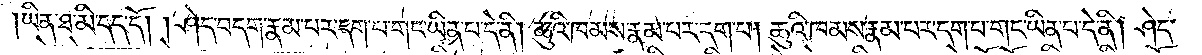ཡིན་ཐ་མི་དད་དོ། །ཤེད་བདག་རྣམ་པར་དག་པ་གང་ཡིན་པ་དེ་ནི། ཆུའི་ཁམས་རྣམ་པར་དག་པ། ཆུའི་ཁམས་རྣམ་པར་དག་པ་གང་ཡིན་པ་དེ་ནི། ཤེད་
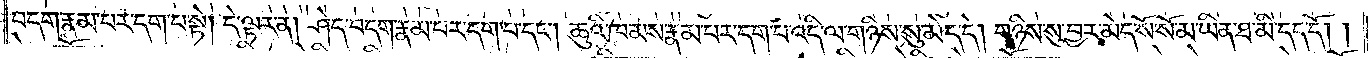བདག་རྣམ་པར་དག་པ་སྟེ། དེ་ལྟར་ན། ཤེད་བདག་རྣམ་པར་དག་པ་དང༌། ཆུའི་ཁམས་རྣམ་པར་དག་པ་འདི་ལ་གཉིས་སུ་མེད་དེ། གཉིས་སུ་བྱར་མེད་སོ་སོ་མ་ཡིན་ཐ་མི་དད་དོ། །
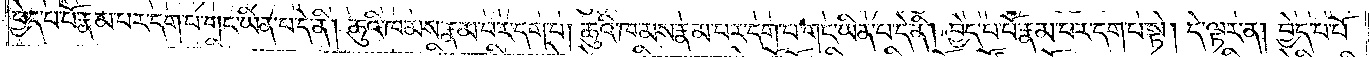བྱེད་པ་པོ་རྣམ་པར་དག་པ་གང་ཡིན་པ་དེ་ནི། ཆུའི་ཁམས་རྣམ་པར་དག་པ། ཆུའི་ཁམས་རྣམ་པར་དག་པ་གང་ཡིན་པ་དེ་ནི། བྱེད་པ་པོ་རྣམ་པར་དག་པ་སྟེ། དེ་ལྟར་ན། བྱེད་པ་པོ་
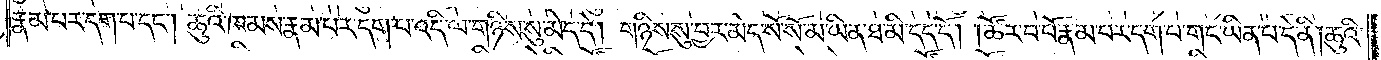རྣམ་པར་དག་པ་དང༌། ཆུའི་ཁམས་རྣམ་པར་དག་པ་འདི་ལ་གཉིས་སུ་མེད་དེ། གཉིས་སུ་བྱར་མེད་སོ་སོ་མ་ཡིན་ཐ་མི་དད་དོ། །ཚོར་བ་པོ་རྣམ་པར་དག་པ་གང་ཡིན་པ་དེ་ནི། ཆུའི་
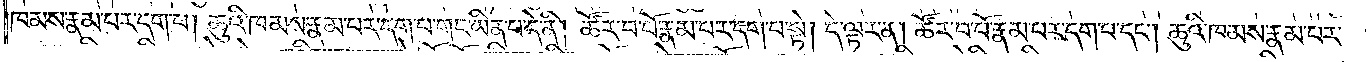ཁམས་རྣམ་པར་དག་པ། ཆུའི་ཁམས་རྣམ་པར་དག་པ་གང་ཡིན་པ་དེ་ནི། ཚོར་བ་པོ་རྣམ་པར་དག་པ་སྟེ། དེ་ལྟར་ན། ཚོར་བ་པོ་རྣམ་པར་དག་པ་དང༌། ཆུའི་ཁམས་རྣམ་པར་
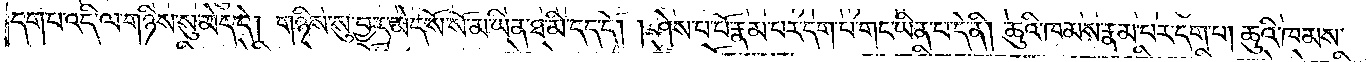དག་པ་འདི་ལ་གཉིས་སུ་མེད་དེ། གཉིས་སུ་བྱར་མེད་སོ་སོ་མ་ཡིན་ཐ་མི་དད་དོ། །ཤེས་པ་པོ་རྣམ་པར་དག་པ་གང་ཡིན་པ་དེ་ནི། ཆུའི་ཁམས་རྣམ་པར་དག་པ། ཆུའི་ཁམས་
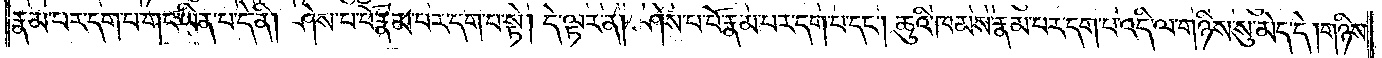རྣམ་པར་དག་པ་གང་ཡིན་པ་དེ་ནི། ཤེས་པ་པོ་རྣམ་པར་དག་པ་སྟེ། དེ་ལྟར་ན། ཤེས་པ་པོ་རྣམ་པར་དག་པ་དང༌། ཆུའི་ཁམས་རྣམ་པར་དག་པ་འདི་ལ་གཉིས་སུ་མེད་དེ། གཉིས་
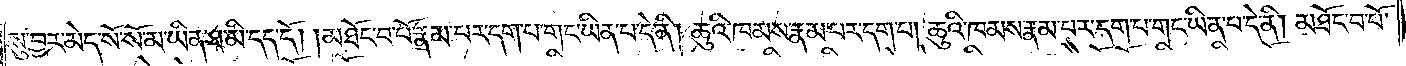སུ་བྱར་མེད་སོ་སོ་མ་ཡིན་ཐ་མི་དད་དོ། །མཐོང་བ་པོ་རྣམ་པར་དག་པ་གང་ཡིན་པ་དེ་ནི། ཆུའི་ཁམས་རྣམ་པར་དག་པ། ཆུའི་ཁམས་རྣམ་པར་དག་པ་གང་ཡིན་པ་དེ་ནི། མཐོང་བ་པོ་
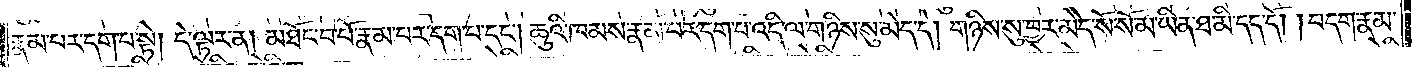རྣམ་པར་དག་པ་སྟེ། དེ་ལྟར་ན། མཐོང་བ་པོ་རྣམ་པར་དག་པ་དང༌། ཆུའི་ཁམས་རྣམ་པར་དག་པ་འདི་ལ་གཉིས་སུ་མེད་དེ། གཉིས་སུ་བྱར་མེད་སོ་སོ་མ་ཡིན་ཐ་མི་དད་དོ། །བདག་རྣམ་
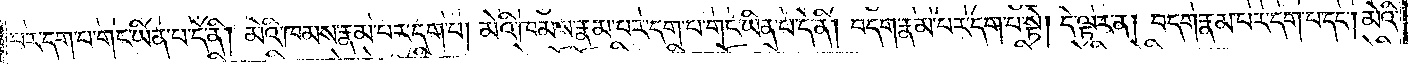པར་དག་པ་གང་ཡིན་པ་དེ་ནི། མེའི་ཁམས་རྣམ་པར་དག་པ། མེའི་ཁམས་རྣམ་པར་དག་པ་གང་ཡིན་པ་དེ་ནི། བདག་རྣམ་པར་དག་པ་སྟེ། དེ་ལྟར་ན། བདག་རྣམ་པར་དག་པ་དང༌། མེའི་
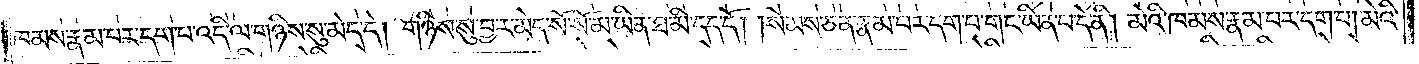ཁམས་རྣམ་པར་དག་པ་འདི་ལ་གཉིས་སུ་མེད་དེ། གཉིས་སུ་བྱར་མེད་སོ་སོ་མ་ཡིན་ཐ་མི་དད་དོ། །སེམས་ཅན་རྣམ་པར་དག་པ་གང་ཡིན་པ་དེ་ནི། མེའི་ཁམས་རྣམ་པར་དག་པ། མེའི་
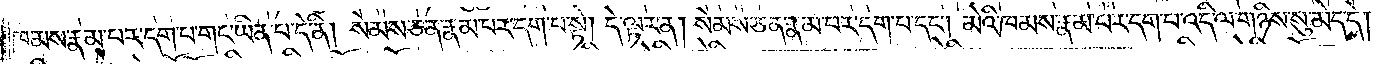ཁམས་རྣམ་པར་དག་པ་གང་ཡིན་པ་དེ་ནི། སེམས་ཅན་རྣམ་པར་དག་པ་སྟེ། དེ་ལྟར་ན། སེམས་ཅན་རྣམ་པར་དག་པ་དང༌། མེའི་ཁམས་རྣམ་པར་དག་པ་འདི་ལ་གཉིས་སུ་མེད་དེ།
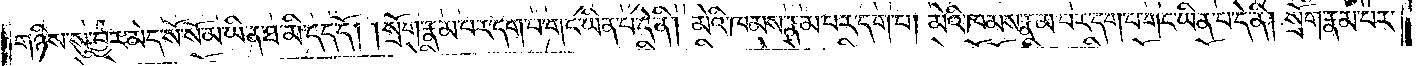གཉིས་སུ་བྱར་མེད་སོ་སོ་མ་ཡིན་ཐ་མི་དད་དོ། །སྲོག་རྣམ་པར་དག་པ་གང་ཡིན་པ་དེ་ནི། མེའི་ཁམས་རྣམ་པར་དག་པ། མེའི་ཁམས་རྣམ་པར་དག་པ་གང་ཡིན་པ་དེ་ནི། སྲོག་རྣམ་པར་
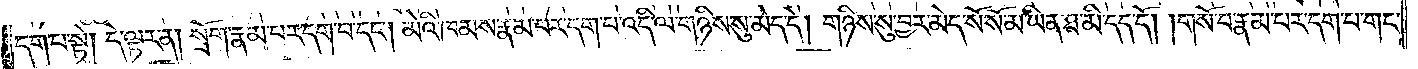དག་པ་སྟེ། དེ་ལྟར་ན། སྲོག་རྣམ་པར་དག་པ་དང༌། མེའི་ཁམས་རྣམ་པར་དག་པ་འདི་ལ་གཉིས་སུ་མེད་དེ། གཉིས་སུ་བྱར་མེད་སོ་སོ་མ་ཡིན་ཐ་མི་དད་དོ། །གསོ་བ་རྣམ་པར་དག་པ་གང་
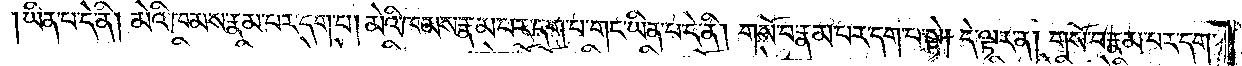ཡིན་པ་དེ་ནི། མེའི་ཁམས་རྣམ་པར་དག་པ། མེའི་ཁམས་རྣམ་པར་དག་པ་གང་ཡིན་པ་དེ་ནི། གསོ་བ་རྣམ་པར་དག་པ་སྟེ། དེ་ལྟར་ན། གསོ་བ་རྣམ་པར་དག་
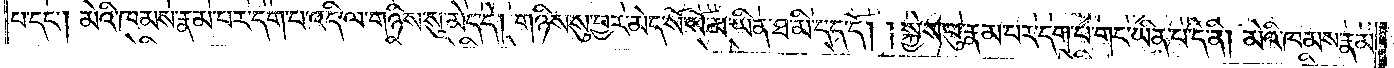པ་དང༌། མེའི་ཁམས་རྣམ་པར་དག་པ་འདི་ལ་གཉིས་སུ་མེད་དེ། གཉིས་སུ་བྱར་མེད་སོ་སོ་མ་ཡིན་ཐ་མི་དད་དོ། །སྐྱེས་བུ་རྣམ་པར་དག་པ་གང་ཡིན་པ་དེ་ནི། མེའི་ཁམས་རྣམ་
